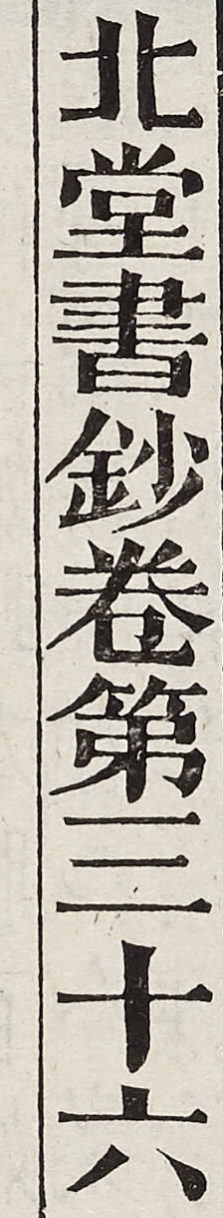北堂書鈔卷第三十六
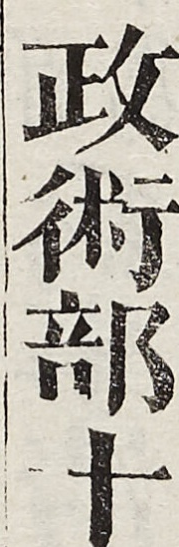政術部十
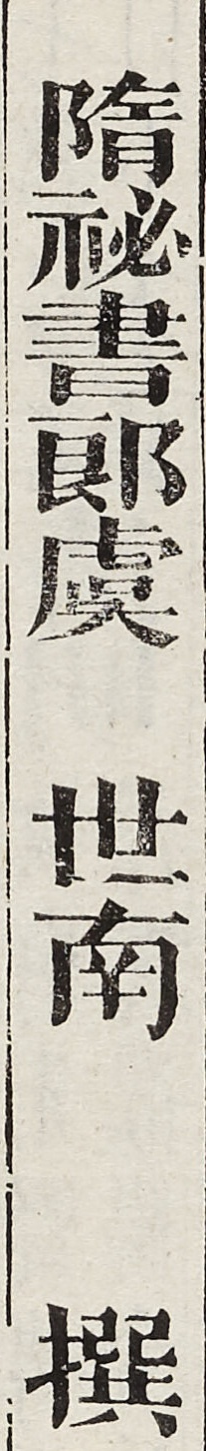隋秘書郎虞世南撰
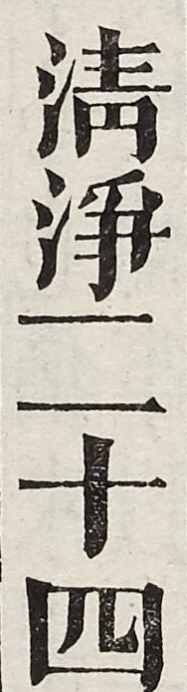清淨二十四
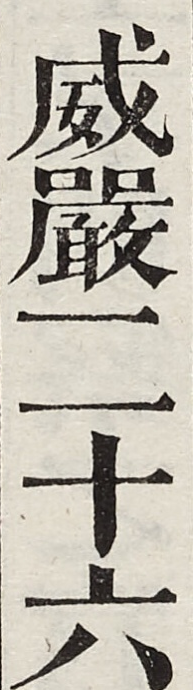威嚴二十六
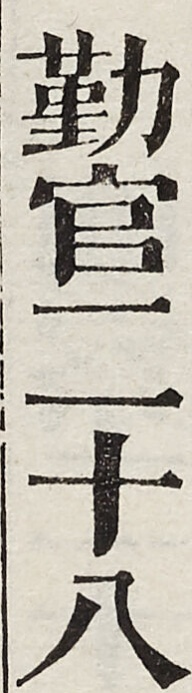勤官二十八
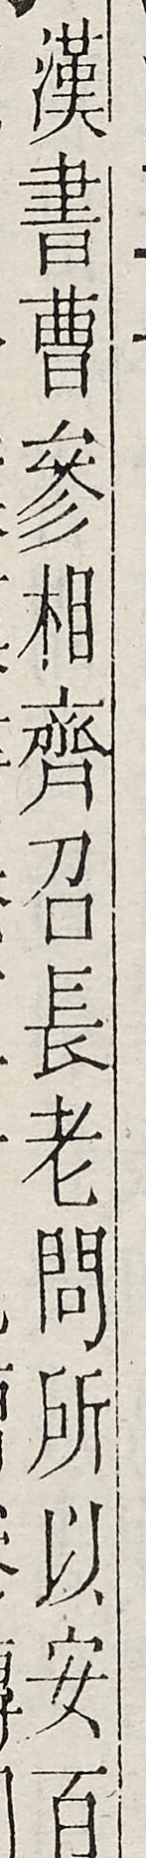漢書曹參相齊召長老問所以安百
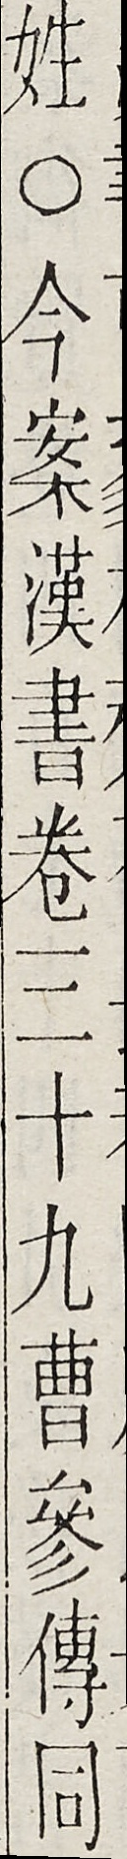姓○今案漢書卷三十九曹參傳同
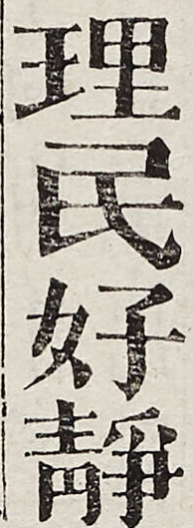理民好靜
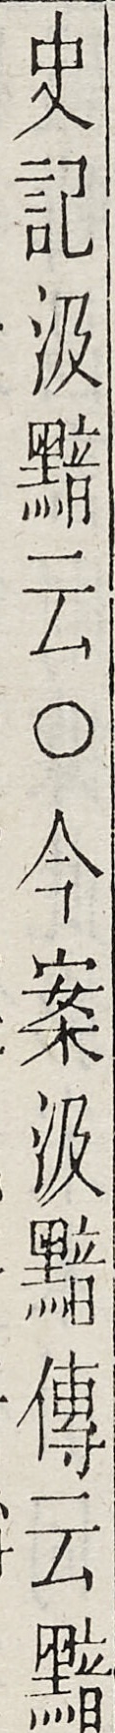史記汲黯云○今案汲黯傳云黯
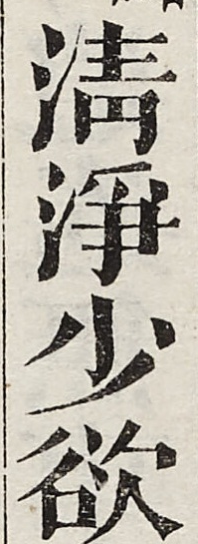清淨少欲
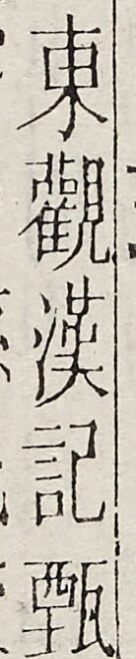東觀漢記甄
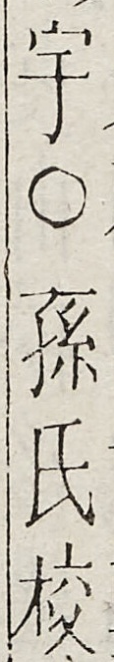宇○孫氏校
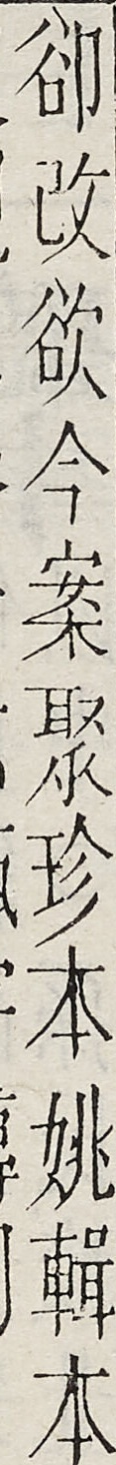卻改欲今案聚珍本姚輯本
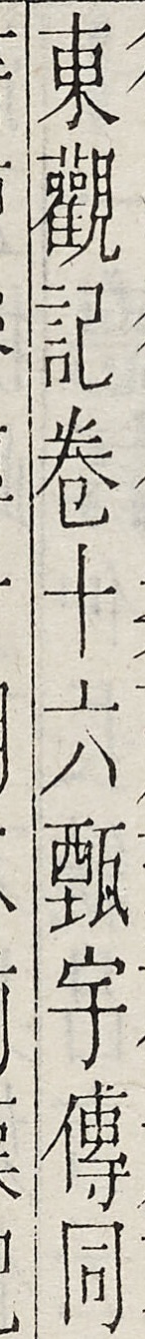東觀記卷十六甄宇傳同
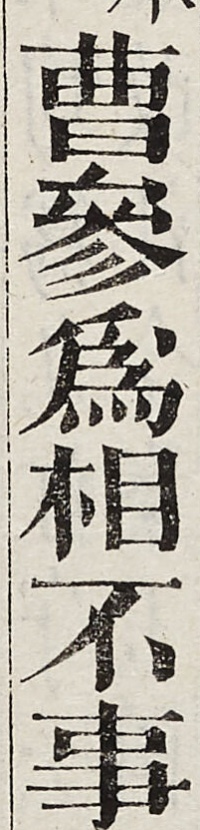曹參為相不事
